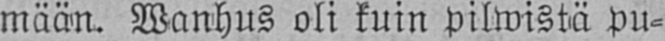mään. Wanhus oli kuin pilwistä pu-
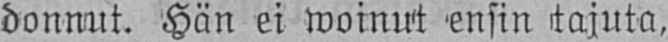donnut. Hän ei woinut ensin tajuta,
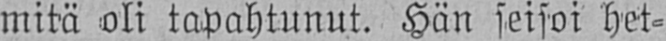mitä oli tapahtunut. Hän seisoi het-
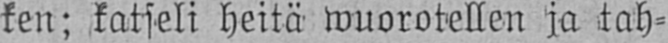ken; katseli heitä wuorotellen ja tah-
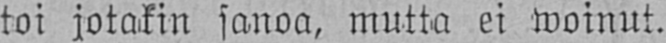toi jotakin sanoa, mutta ei woinut.
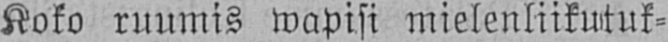Koko ruumis wapisi mielenliikutuk-
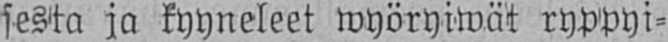sesta ja kyyneleet wyöryiwät ryppyi-
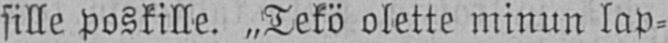sille poskille. „Tekö olette minun lap-
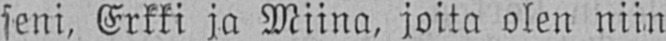seni, Erkki ja Miina, joita olen niin
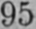95
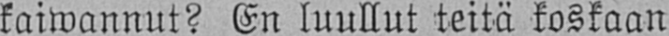kaiwannut? En luullut teitä koskaan
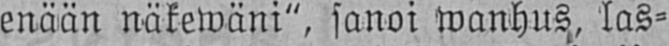enään näkewäni", sanoi wanhus, las-
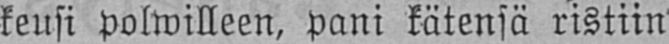keusi polwilleen, pani kätensä ristiin
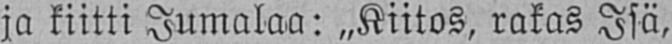ja kiitti Jumalaa: „Kiitos, rakas Isä,
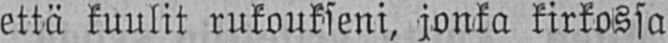että kuulit rukoukseni, jonka kirkossa
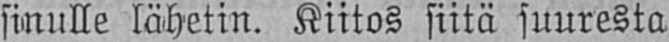sinulle lähetin. Kiitos siitä suuresta
